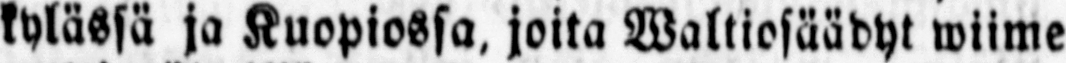kylässä ja Kuopiossa, joita Waltiosäädyt wiime
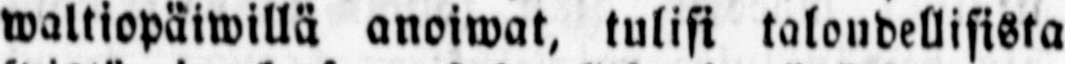waltiopäiwillä anoiwat, tulisi taloudellisista
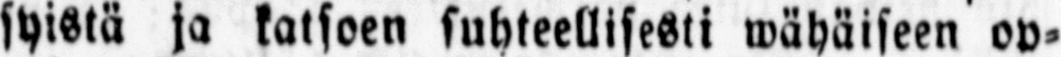syistä ja katsoen suhteellisesti wähäiseen op-
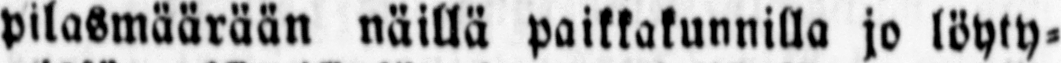pilasmäärään näillä paikkakunnilla jo löyty-
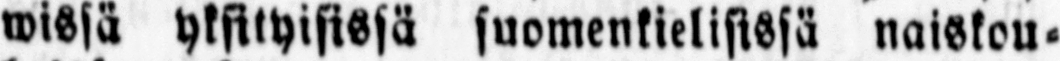wissä yksityisissä suomenkielisissä naiskou-
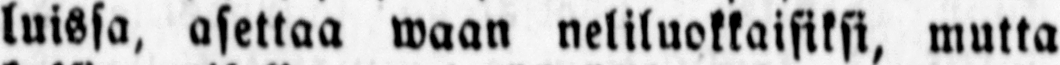luissa, asettaa waan neliluokkaisiksi, mutta
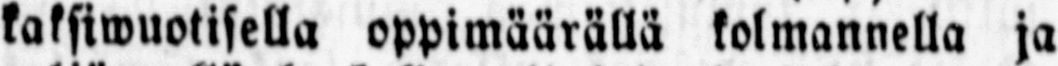kaksiwuotisella oppimäärällä kolmannella ja
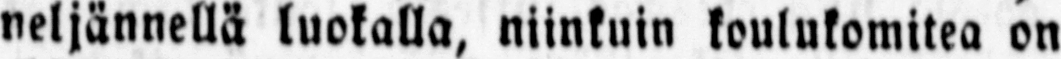neljännellä luokalla, niinkuin koulukomitea on
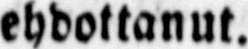ehdottanut.
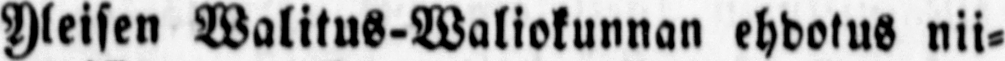Yleisen Walitus-Waliokunnan ehdotus nii-
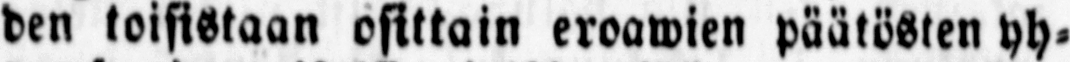den toisistaan osittain eroawien päätösten yh-
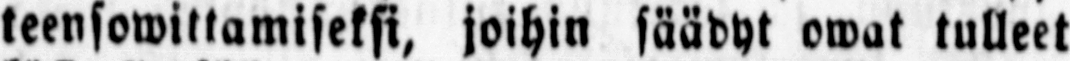teensowittamiseksi, joihin säädyt owat tulleet
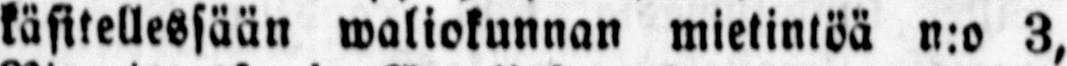käsitellessään waliokunnan mietintöä n:o 3,
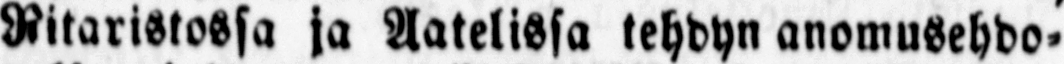Ritaristossa ja Aatelissa tehdyn anomusehdo-
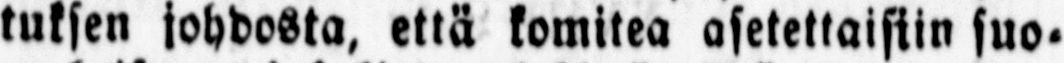tuksen johdosta, että komitea asetettaisiin suo-
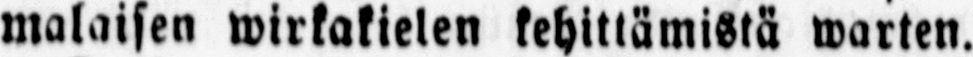malaisen wirkakielen kehittämistä warten.
